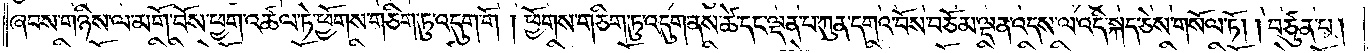ཞབས་གཉིས་ལ་མགོ་བོས་ཕྱག་འཚལ་ཏེ་ཕྱོགས་གཅིག་ཏུ་འདུག་གོ །ཕྱོགས་གཅིག་ཏུ་འདུག་ནས་ཚེ་དང་ལྡན་པ་ཀུན་དགའ་བོས་བཅོམ་ལྡན་འདས་ལ་འདི་སྐད་ཅེས་གསོལ་ཏོ། །བཙུན་པ།
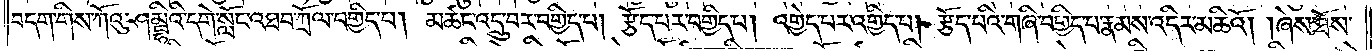བདག་གིས་ཀོའུ་ཤམྦྷིའི་དགེ་སློང་འཐབ་ཀྲོལ་བགྱིད་པ། མཚང་འདྲུ་བར་བགྱིད་པ། རྩོད་པར་བགྱིད་པ། འགྱེད་པར་བགྱིད་པ། རྩོད་པའི་གཞི་བགྱིད་པ་རྣམས་འདིར་མཆིའོ། །ཞེས་ཐོས་
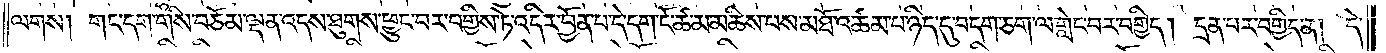ལགས། གང་དག་གིས་བཅོམ་ལྡན་འདས་ཐུགས་ཕྱུང་བར་བགྱིས་ཏེ་འདིར་བྱོན་པ་དེ་དག་ངོ་ཚ་མ་མཆིས་པས་མཐོ་འཚམ་པ་ཉིད་དུ་བདག་ཅག་ལ་གླེང་བར་བགྱིད། དྲན་པར་བགྱིད་ན། དེ་
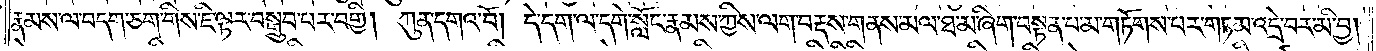རྣམས་ལ་བདག་ཅག་གིས་ཇི་ལྟར་བསྒྲུབ་པར་བགྱི། ཀུན་དགའ་བོ། དེ་དག་ལ་དགེ་སློང་རྣམས་ཀྱིས་ལག་བརྡས་གནས་མལ་ཐ་མ་ཞིག་བསྟན་པ་མ་གཏོགས་པར་གཏམ་འདྲེ་བར་མི་བྱ།
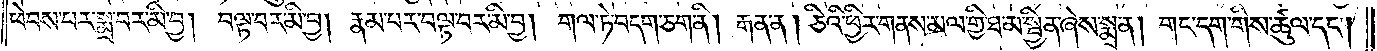ཕེབས་པར་སྨྲ་བར་མི་བྱ། བལྟ་བར་མི་བྱ། རྣམ་པར་བལྟ་བར་མི་བྱ། གལ་ཏེ་བདག་ཅག་ནི། རྒན་ན། ཅིའི་ཕྱིར་གནས་མལ་གྱི་ཐ་མ་སྦྱིན་ཞེས་སྨྲ་ན། གང་དག་གིས་ཚུལ་དང༌།
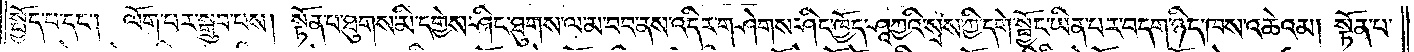སྤྱོད་པ་དང༌། ལོག་པར་སྒྲུབ་པས། སྟོན་པ་ཐུགས་མི་དགྱེས་ཤིང་ཐུགས་ལ་མ་བབ་ནས་འདིར་གཤེགས་ཤིང་ཁྱོད་ཤཱཀྱའི་སྲས་ཀྱི་དགེ་སྦྱོང་ཡིན་པར་བདག་ཉིད་ཁས་འཆེའམ། སྟོན་པ་
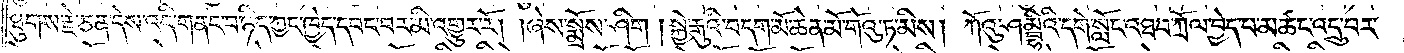ཐུགས་རྗེ་ཅན་དེས་འདི་གནང་བ་ཉིད་ཀྱང་ཁྱེད་དབང་བར་མི་འགྱུར་རོ། །ཞེས་སྨྲོས་ཤིག །སྐྱེ་རྒུའི་བདག་མོ་ཆེན་མོ་གོའུ་ཏ་མིས། ཀོའུ་ཤམྦྷིའི་དགེ་སློང་འཐབ་ཀྲོལ་བྱེད་པ་མཚང་འདྲུ་བར་
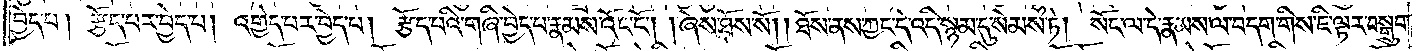བྱེད་པ། རྩོད་པར་བྱེད་པ། འགྱེད་པར་བྱེད་པ། རྩོད་པའི་གཞི་བྱེད་པ་རྣམས་འོང་ངོ༌། །ཞེས་ཐོས་སོ། །ཐོས་ནས་ཀྱང་དེ་འདི་སྙམ་དུ་སེམས་ཏེ། སོང་ལ་དེ་རྣམས་ལ་བདག་གིས་ཇི་ལྟར་བསྒྲུབ་
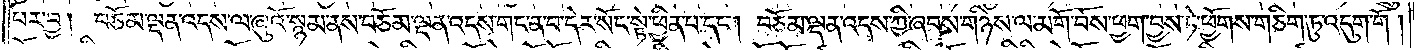པར་བྱ། བཅོམ་ལྡན་འདས་ལ་ཞུའོ་སྙམ་ནས་བཅོམ་ལྡན་འདས་གང་ན་བ་དེར་སོང་སྟེ་ཕྱིན་པ་དང༌། བཅོམ་ལྡན་འདས་ཀྱི་ཞབས་གཉིས་ལ་མགོ་བོས་ཕྱག་བྱས་ཏེ་ཕྱོགས་གཅིག་ཏུ་འདུག་གོ།
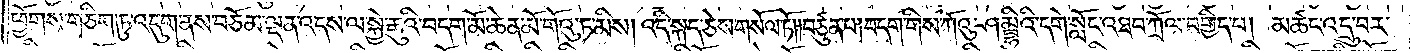ཕྱོགས་གཅིག་ཏུ་འདུག་ནས་བཅོམ་ལྡན་འདས་ལ་སྐྱེ་རྒུའི་བདག་མོ་ཆེན་མོ་གོའུ་ཏ་མིས། འདི་སྐད་ཅེས་གསོལ་ཏོ། །བཙུན་པ། བདག་གིས་ཀོའུ་ཤམྦྷིའི་དགེ་སློང་འཐབ་ཀྲོལ་བགྱིད་པ། མཚང་འདྲུ་བར་
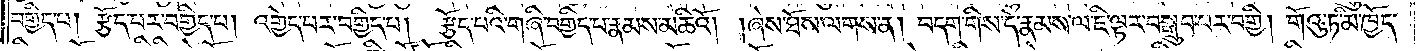བགྱིད་པ། རྩོད་པར་བགྱིད་པ། འགྱེད་པར་བགྱིད་པ། རྩོད་པའི་གཞི་བགྱིད་པ་རྣམས་མཆིའོ། །ཞེས་ཐོས་ལགས་ན། བདག་གིས་དེ་རྣམས་ལ་ཇི་ལྟར་བསྒྲུབ་པར་བགྱི། གོའུ་ཏ་མི་ཁྱོད་
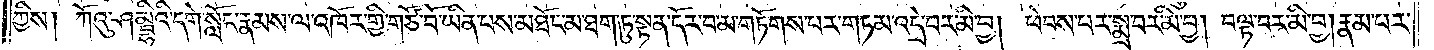ཀྱིས། ཀོའུ་ཤམྦྷིའི་དགེ་སློང་རྣམས་ལ་འཁོར་གྱི་གཙོ་བོ་ཡིན་པས་མཐོང་མ་ཐག་ཏུ་སྟན་དོར་བ་མ་གཏོགས་པར་གཏམ་འདྲེ་བར་མི་བྱ། ཕེབས་པར་སྨྲ་བར་མི་བྱ། བལྟ་བར་མི་བྱ། རྣམ་པར་
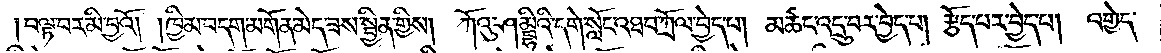།བལྟ་བར་མི་བྱའོ། །ཁྱིམ་བདག་མགོན་མེད་ཟས་སྦྱིན་གྱིས། ཀོའུ་ཤམྦྷིའི་དགེ་སློང་འཐབ་ཀྲོལ་བྱེད་པ། མཚང་འདྲུ་བར་བྱེད་པ། རྩོད་པར་བྱེད་པ། འགྱེད་
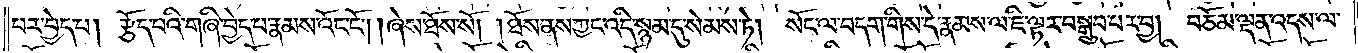པར་བྱེད་པ། རྩོད་པའི་གཞི་བྱེད་པ་རྣམས་འོང་ངོ༌། །ཞེས་ཐོས་སོ། །ཐོས་ནས་ཀྱང་འདི་སྙམ་དུ་སེམས་ཏེ། སོང་ལ་བདག་གིས་དེ་རྣམས་ལ་ཇི་ལྟར་བསྒྲུབ་པར་བྱ། བཅོམ་ལྡན་འདས་ལ་
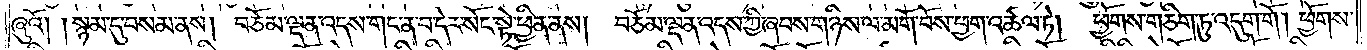ཞུའོ། །སྙམ་དུ་བསམ་ནས། བཅོམ་ལྡན་འདས་གང་ན་བ་དེར་སོང་སྟེ་ཕྱིན་ནས། བཅོམ་ལྡན་འདས་ཀྱི་ཞབས་གཉིས་ལ་མགོ་བོས་ཕྱག་འཚལ་ཏེ།<gap>ཕྱོགས་གཅིག་ཏུ་འདུག་གོ། ཕྱོགས་
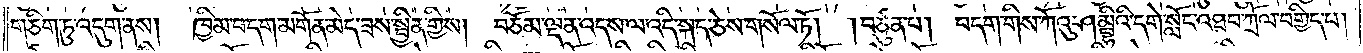གཅིག་ཏུ་འདུག་ནས།<gap>ཁྱིམ་བདག་མགོན་མེད་ཟས་སྦྱིན་གྱིས། བཅོམ་ལྡན་འདས་ལ་འདི་སྐད་ཅེས་གསོལ་ཏོ། །བཙུན་པ། བདག་གིས་ཀོའུ་ཤམྦྷིའི་དགེ་སློང་འཐབ་ཀྲོལ་བགྱིད་པ།
